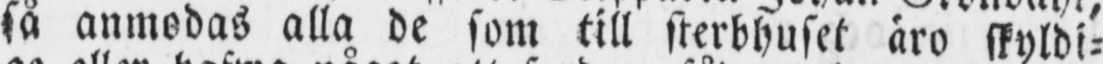få anmodas alla de som till sterbhuset äro skyldi-
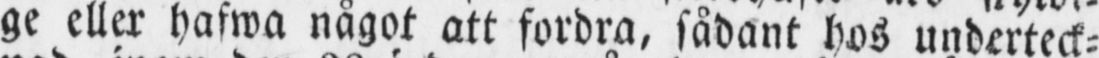ge eller hafwa något att fordra, sådant hos underteck-
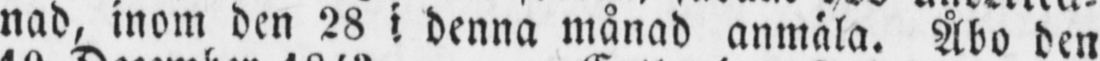nad, inom den 28 i denna månad anmäla. Åbo den
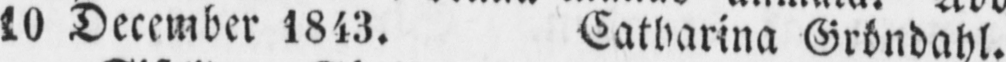10 December 1843. Catharina Gröndahl.
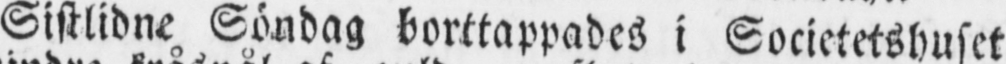Sistlidne Söndag borttappades i Societetshuset
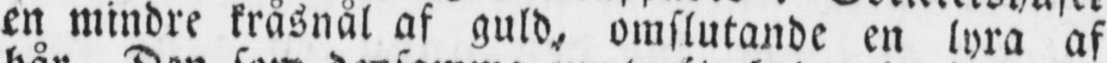en mindre kråsnål af guld, omslutande en lyra af
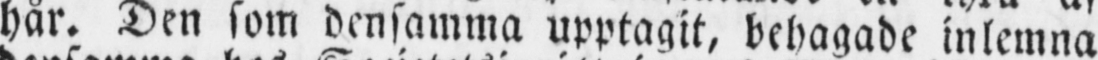hår. Den som densamma upptagit, behagade inlemna
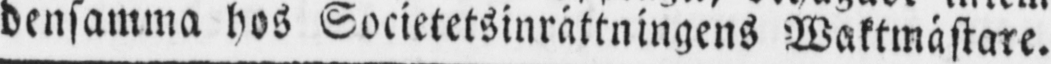densamma hos Societetsinrättningens Waktmästare.
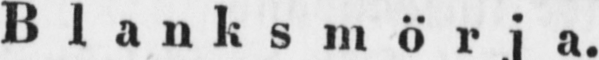B l a n k s m ö r j a.
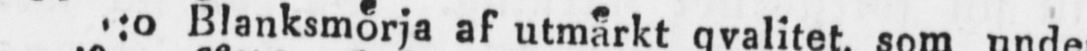:o Blanksmörja af utmärkt qvalitet, som under
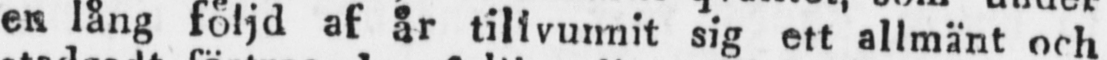en lång följd af år tillvunnit sig ett allmänt och
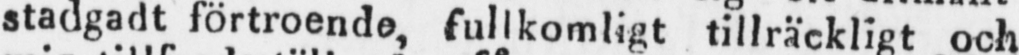stadgat förtroende, fullkomligt tillräckligt och för
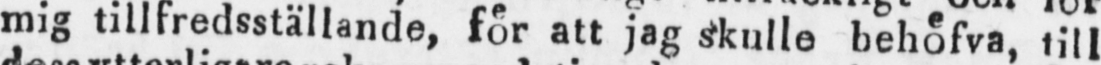mig tillfredsställande, för att jag skulle behöfva, till
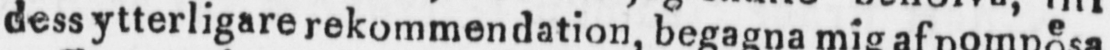dessytterligare rekommendation, begagna mig af pompösa
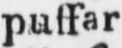puffar om dess oförbätterlighet, hvaraf den hedersvärda
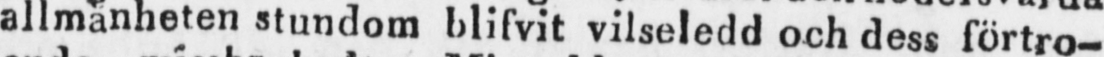allmänheten stundom blifvit vilseledd och dess förtro-
